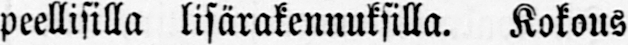peellisilla lisärakennuksilla. Kokous
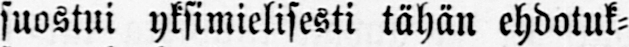suostui yksimielisesti tähän ehdotuk-
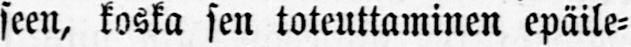seen, koska sen toteuttaminen epäile-
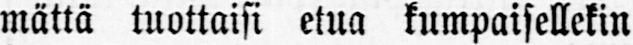mättä tuottaisi etua kumpaisellekin
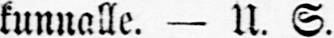kunnalle. — U. S.
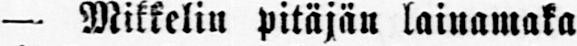— Mikkelin pitäjän lainamaka
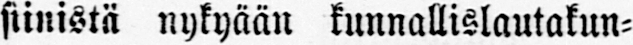siinistä nykyään kunnallislautakun-
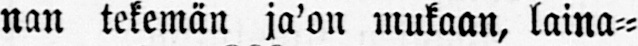nan tekemän ja'on mukaan, laina-
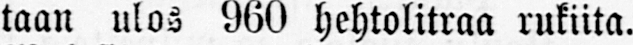taan ulos 960 hehtolitraa rukiita.
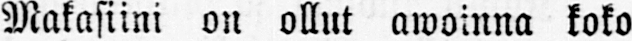Makasiini on ollut awoinna koko
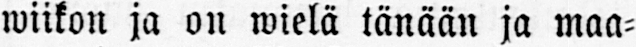wiikon ja on wielä tänään ja maa-
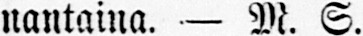nantaina. — M. S.
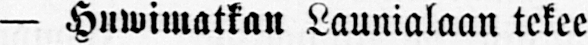— Huwimatkan Launialaan tekee
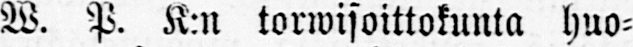W. P. K:n torwisoittokunta huo-
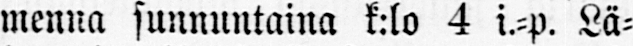menna sunnuntaina k:lo 4 i.-p. Lä-
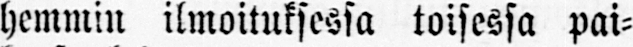hemmin ilmoituksessa toisessa pai-
